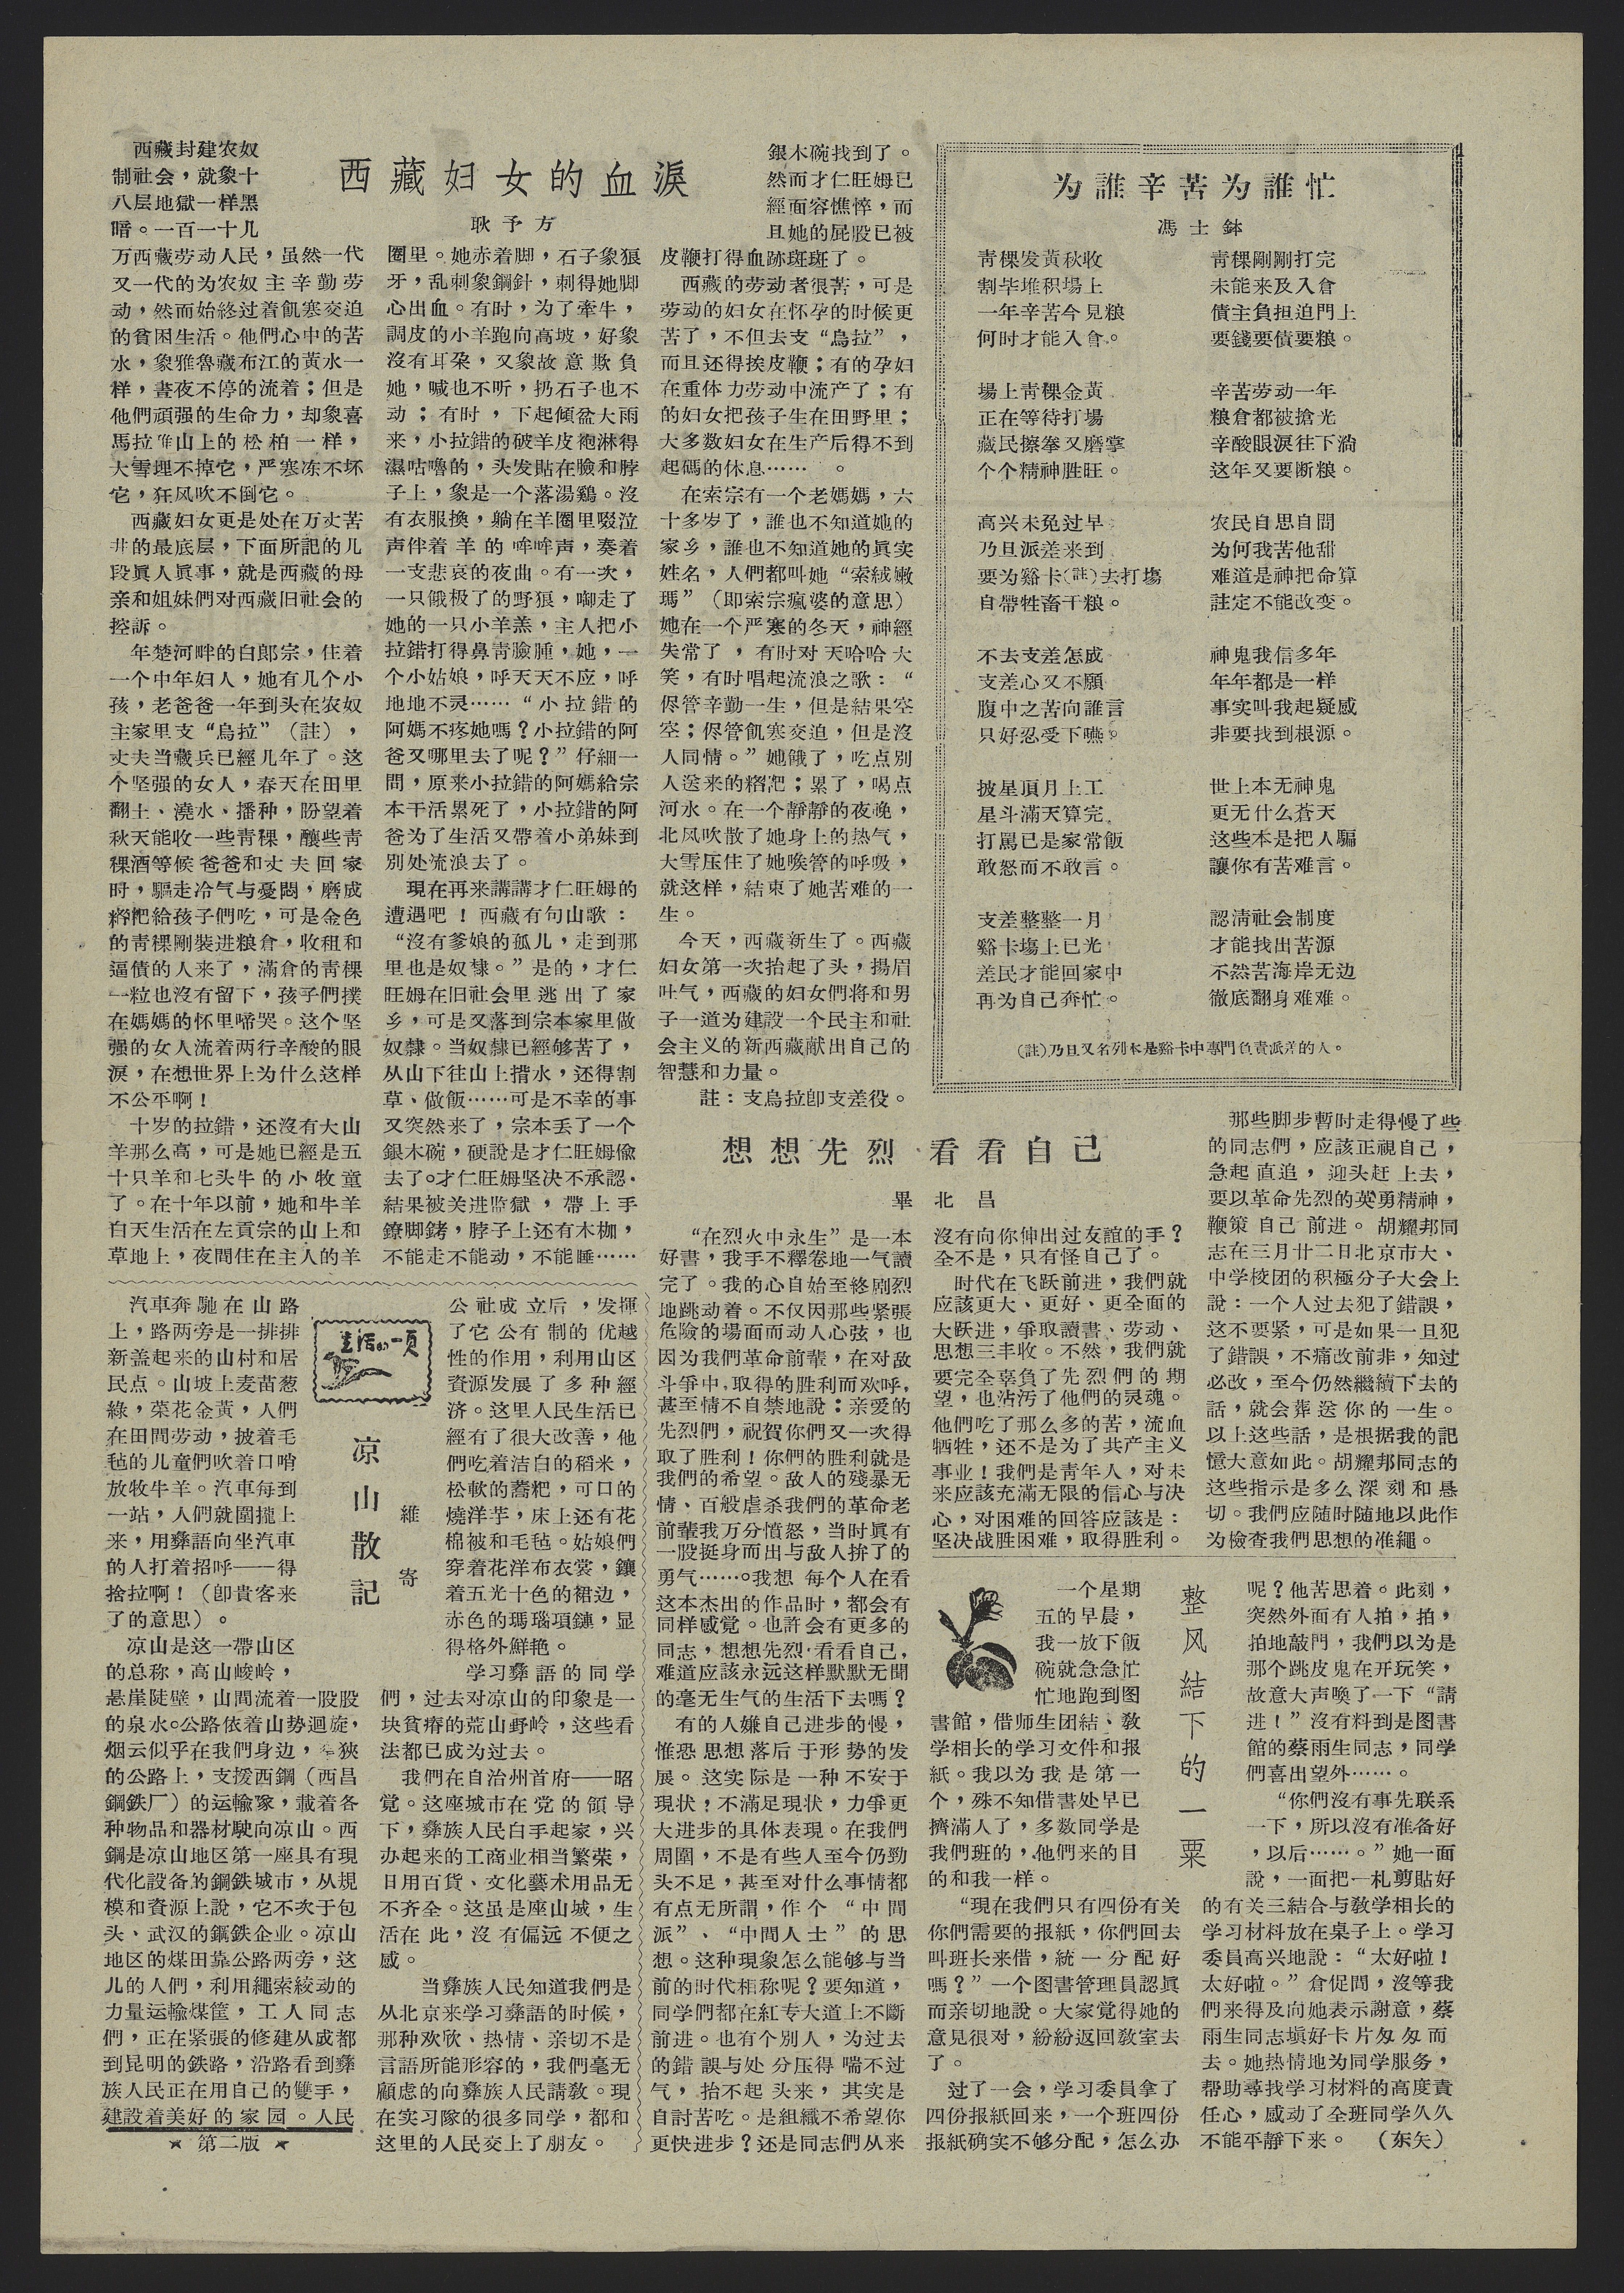西 藏 妇 女 的 血 淚
耿予方
西藏封建农奴
制社会，就象十
八层地獄一样黑
暗。一百一十几
万西藏劳动人民，虽然一代
又一代的为农奴主辛勤劳
动，然而始終过着飢寒交迫
的貧困生活。他們心中的苦
水，象雅魯藏布江的黃水一
样，晝夜不停的流着；但是
他們頑强的生命力，却象喜
馬拉雅山上的松柏一样，
大雪埋不掉它，严寒冻不坏
它，狂风吹不倒它。
西藏妇女更是处在万丈苦
井的最底层，下面所記的几
段眞人眞事，就是西藏的母
亲和姐妹們对西藏旧社会的
控訴。
年楚河畔的白朗宗，住着
一个中年妇人，她又几个小
子，老爸爸一年到头在农奴
主家里支“烏拉”（註），
丈夫当藏兵已經几年了。这
个坚强的女人，春天在田里
翻土、澆水、播种、盼望着
秋天能收一些靑稞，釀些靑
稞酒等候爸爸和丈夫回家
时，驅走冷气与憂悶，磨成
糌粑給孩子們吃，可是金色
的靑稞剛装进粮倉，收租和
逼債的人来了，滿倉的靑稞
一粒也沒有留下，孩子們撲
在媽媽的怀里啼哭。这个坚
强的女人流着两行辛酸的眼
淚，在想世界上为什么这样
不公平啊！
十岁的拉錯，还沒有大山
羊那么高，可是她已經是五
十只羊和七头牛的小牧童
了。在十年以前，她和牛羊
白天生活在左貢宗的山上和
草地上，夜間住在主人的羊
圈里。她赤着脚，石子象狼
牙，乱刺象鋼針，刺得她脚
心出血。有时，为了牽牛，
調皮的小羊跑向高坡，好象
沒有耳朶，又象故意欺負
她，喊也不听，扔石子也不
动；有时，下起傾盆大雨
来，小拉錯的破羊皮袍淋得
濕咕嚕的，头发貼在臉和脖
子上，象是一个落湯雞。沒
有衣服換，躺在羊圈里啜泣
声伴着羊的哞哞声，奏着
一支悲哀的夜曲。又一次，
一只餓极了的野狼，啣走了
她的一只小羊羔，主人把小
拉錯打得鼻靑臉腫，她，一
个小姑娘，呼天天不应，呼
地地不灵……“小拉錯的
阿媽不疼她嗎？小拉錯的阿
爸又哪里去了呢？”仔細一
問，原来小拉錯的阿媽給宗
本干活累死了，小拉錯的阿
爸为了生活又帶着小弟妹到
別处流浪去了。
現在再来講講才仁旺姆的
遭遇吧！西藏有句山歌：
“沒有爹娘的孤儿，走到那
里也是奴隸。”是的，才仁
旺姆在旧社会里逃出了家
乡，可是又落到宗本家里做
奴隸。当奴隸已經够苦了，
从山下往山上揹水，还得割
草、做飯……可是不幸的事
又突然来了，宗本丢了一个
銀木碗，硬說是才仁旺姆偷
去了。才仁旺姆坚决不承認，
結果被关进监獄，帶上手
鐐脚銬，脖子上还有木枷，
不能走不能动，不能睡……
銀木碗找到了。
然而才仁旺姆已
經面容憔悴，而
且她的屁股已被
皮鞭打得血跡斑斑了。
西藏的劳动者很苦，可是
劳动的妇女在怀孕的时候更
苦了，不但去支“烏拉”，
而且还得挨皮鞭；有的孕妇
在重体力劳动中流产了；有
的妇女把孩子生在田野里；
大多数妇女在生产后得不到
起碼的休息……。
在索宗有一个老媽媽，六
十多岁了，誰也不知道她的
家乡，誰也不知道她的眞实
姓名，人們都叫她“索絨嫩
瑪”（即索宗瘋婆的意思）
她在一个严寒的冬天，神經
失常了，有时对天哈哈大
笑，有时唱起流浪之歌：“
侭管辛勤一生，但是結果空
空；侭管飢寒交迫，但是沒
人同情。”她餓了，吃点別
人送来的糌粑；累了，喝点
河水。在一个靜靜的夜晚，
北风吹散了她身上的热气，
大雪压住了她喉管的呼吸，
就这样，結束了她苦难的一
生。
今天，西藏新生了。西藏
妇女第一次抬起了头，揚眉
吐气，西藏的妇女們将和男
子一道为建設一个民主和社
会主义的新西藏献出自己的
智慧和力量。
註：支烏拉卽支差役。
为誰辛苦为誰忙
馮 士 鉢
靑稞发黃秋收
割毕堆积場上
一年辛苦今見粮
何时才能入倉。
場上靑稞金黃
正在等待打場
藏民擦拳又磨掌
个个精神胜旺。
高兴未免过早
乃旦派差来到
要为谿卡（註）去打塲
自帶牲畜干粮。
不去支差怎成
支差心又不願
腹中之苦向誰言
只好忍受下嚥。
披星頂月上工
星斗滿天算完
打罵已是家常飯
敢怒而不敢言。
支差整整一月
谿卡塲上已光
差民才能回家中
再为自己奔忙。
靑稞剛剛打完
未能来及入倉
債主負担迫門上
要錢要債要粮。
辛苦劳动一年
粮倉都被搶光
辛酸眼淚往下淌
这年又要断粮。
农民自思自問
为何我苦他甜
难道是神把命算
註定不能改变。
神鬼我信多年
年年都是一样
事实叫我起疑感
非要找到根源。
世上本无神鬼
更无什么蒼天
这些本是把人騙
讓你有苦难言。
認清社会制度
才能找到苦源
不然苦海岸无边
徹底翻身难难。
（註）乃旦又名列本是谿卡中專門負責派差的人。
生活的一页
凉 山 散 記
維 寄
汽車奔馳在山路
上，路两旁是一排排
新盖起来的山村和居
民点。山坡上麦苗葱
綠，菜花金黃，人們
在田間劳动，披着毛
毡的儿童們吹着口哨
放牧牛羊。汽車每到
一站，人們就圍攏上
来，用彝語向坐汽車
的人打着招呼——得
捨拉啊！（卽貴客来
了的意思）。
凉山是这一帶山区
的总称，高山峻岭，
悬崖陡壁，山間流着一股股
的泉水。公路依着山势迴旋，
烟云似乎在我們身边，窄狹
的公路上，支援西鋼（西昌
鋼鉄厂）的运輸隊，載着各
种物品和器材駛向凉山。西
鋼是凉山地区第一座具有現
代化設备的鋼鉄城市，从規
模和資源上說，它不次于包
头、武汉的鋼鉄企业。凉山
地区的煤田靠共路两旁，这
儿的人們，利用繩索絞动的
力量运輸煤筐，工人同志
們，正在紧張的修建从成都
到昆明的鉄路，沿路看到彝
族人民正在用自己的雙手，
建設着美好的家园。人民
公社成立后，发揮
了它公有制的优越
行的作用，利用山区
資源发展了多种經
济。这里人民生活已
經有了很大改善，他
們吃着洁白的稻米，
松軟的蕎粑，可口的
燒洋芋，床上还有花
棉被和毛毡。姑娘們
穿着花洋布衣裳，鑲
着五光十色的裙边，
赤色的瑪瑙項鍊，显
得格外鮮艳。
学习彝語的同学
們，过去对凉山的印象是一
块貧瘠的荒山野岭，这些看
法都已成为过去。
我們在自治州首府——昭
覚。着座城市在党的領导
下，彝族人民白手起家，兴
办起来的工商业相当繁荣，
日用百貨、文化藝术用品无
不齐全。这虽是座山城，生
活在此，沒有偏远不便之
感。
当彝族人民知道我們是
从北京来学习彝語的时候，
那种欢欣、热情、亲切不是
言語所能形容的，我們毫无
顧虑的向彝族人民請敎。現
在实习隊的很多同学，都和
这里的人民交上了朋友。
★ 第二版 ★
想想先烈 看看自己
畢 北 昌
“在烈火中永生”是一本
好書，我手不釋卷地一气讀
完了。我的心自始至終剧烈
地跳动着。不仅因那些紧張
危險的場面而动人心弦，也
因为我們革命前輩，在对敌
斗爭中，取得的胜利而欢呼，
甚至情不自禁地說：亲爱的
先烈們，祝賀你們又一次得
取了胜利！你們的胜利就是
我們的希望。敌人的殘暴无
情、百般虐杀我們的革命老
前輩我万分憤怒，当时眞有
一股挺身而出与敌人拚了的
勇气……。我想每个人在看
这本杰出的作品时，都会有
同样感覚。也許会有更多的
同志，想想先烈，看看自己，
难道应該永远这样默默无聞
的毫无生气的生活下去嗎？
有的人嫌自己进步的慢，
惟恐思想落后于形势的发
展。这实际是一种不安于
現状，不滿足現状，力爭更
大进步的具体表現。在我們
周圍，不是有些人至今仍勁
头不足，甚至对什么事情都
有点无所謂，作个“中間
派”、“中間人士”的思
想。这种現象怎么能够与当
前的时代相称呢？要知道，
同学們都在紅专大道上不斷
前进。也有个别人，为过去
的錯誤与处分压得喘不过
气，抬不起头来，其实是
自討苦吃。是組織不希望你
更快进步？还是同志們从来
沒有向你伸出过友誼的手？
全不是，只有怪自己了。
时代在飞跃前进，我們就
应該更大、更好、更全面的
大跃进，爭取讀書、劳动、
思想三丰收。不然，我們就
要完全辜負了先烈們的期
望，也沾污了他們的灵魂。
他們吃了那么多的苦，流血
牺牲，还不是为了共产主义
事业！我們是靑年人，对未
来应該充滿无限的信心与决
心，对困难的回答应該是：
坚决战胜困难，取得胜利。
那些脚步暫时走得慢了些
的同志們，应該正視自己，
急起直追，迎头赶上去，
要以革命先烈的英勇精神，
鞭策自己前进。胡耀邦同
志在三月廿二日北京市大、
中学校团的积極分子大会上
說：一个人过去犯了錯誤，
这不要紧，可是如果一旦犯
了錯誤，不痛改前非，知过
必改，至今仍然繼續下去的
話，就会葬送你的一生。
以上这些話，是根据我的記
憶大意如此。胡耀邦同志的
这些指示是多么深刻和恳
切。我們应随时随地以此作
为檢查我們思想的准繩。
整风結下的一粟
一个星期
五的早晨，
我一放下飯
碗就急急忙
忙地跑到图
書館，借师生团結、敎
学相长的学习文件和报
紙。我以为我是第一
个，殊不知借書处早已
擠滿人了，多数同学是
我們班的，他們来的目
的和我一样。
“現在我們只有四份有关
你們需要的报紙，你們回去
叫班长来借，統一分配好
嗎？”一个图書管理員認眞
而亲切地說。大家覚得她的
意見很对，紛紛返回敎室去
了。
过了一会，学习委員拿了
四份报紙回来，一个班四份
报紙确实不够分配，怎么办
呢？他苦思着。此刻，
突然外面有人拍，拍，
拍地敲門，我們以为是
那个跳皮鬼在开玩笑，
故意大声喚了一下“請
进！”沒有料到是图書
館的蔡雨生同志，同学
們喜出望外……。
“你們沒有事先联系
一下，所以沒有准备好
，以后……。”她一面
說，一面把一札剪貼好
的有关三結合與敎学相长的
学习材料放在桌子上。学习
委員高兴地說：“太好啦！
太好啦。”倉促間，沒等我
們来得及向她表示謝意，蔡
雨生同志塡好卡片匆匆而
去。她热情地为同学服务，
帮助尋找学习材料的高度責
任心，感动了全班同学久久
不能平靜下来。
（东矢）
